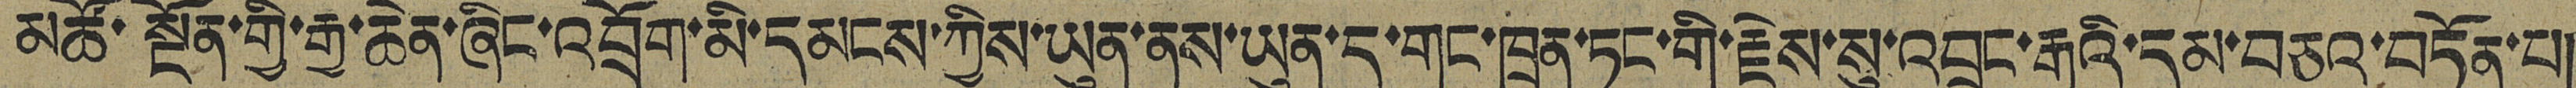མཚོ་སྔོན་གྱི་རྒྱ་ཆེན་ཞིང་འབྲོག་མི་དམངས་ཀྱིས་ཡུན་ནས་ཡུན་དུ་གུང་ཁྲན་ཏང་གི་རྗེས་སུ་འབྲང་རྒྱུའི་དམ་བཅའ་བཏོན་པ།
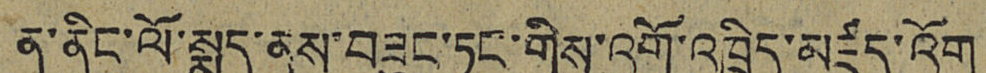ན་ནིང་ལོ་སྨད་ནས་བཟུང་ཏང་གིས་འོག་འཁྲིད་མཛད་འོག
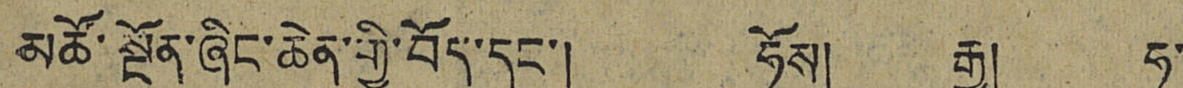མཚོ་སྔོན་ཞིང་ཆེན་གྱི་བོད་དང་། ཧོས། རྒྱ། ཧ་
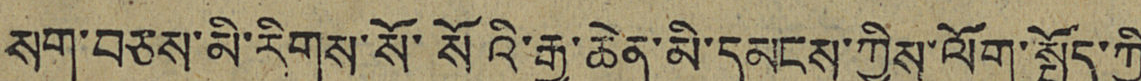སག་བཅས་མི་རིགས་སོ་སོའི་རྒྱ་ཆེན་མི་དམངས་ཀྱིས་ལོག་སྤྱོད་ཀྱི་
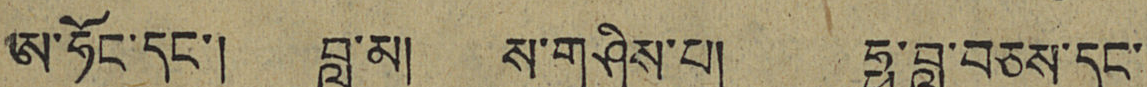ཨ་ཧོང་དང་། བླ་མ། ས་གཤིས་པ། ཧྥ་བླ་བཅས་དང་།
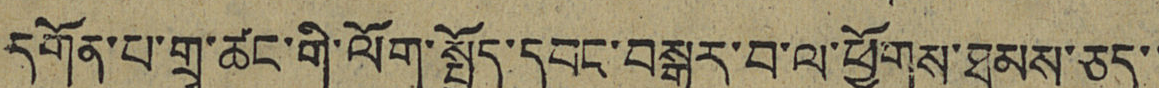དགོན་པ་གྲྭ་ཚང་གི་ལོག་སྤྱོད་དབང་བསྒྱུར་བ་ལ་ཕྱོགས་ཐམས་ཅད་་
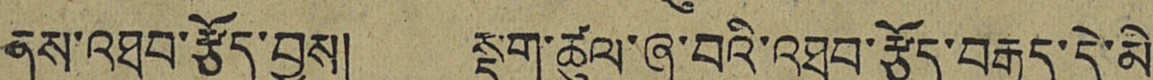ནས་འཐབ་རྫོད་བྱས། སྡུག་ཚུལ་ཞུ་བའི་འཐབ་རྩོད་བརྒྱུད་དེ་མི་
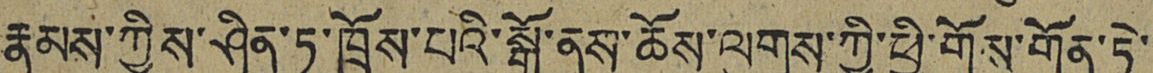རྣམས་ཀྱིས་ཤིན་ཏུ་ཁྲོས་པའི་སྒོ་ནས་ཆོས་ལུགས་ཀྱི་ཕྱི་གོས་གོན་ཏེ་་
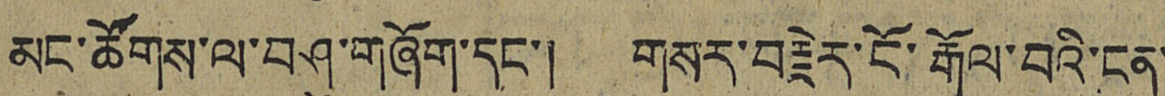མང་ཚོགས་ལ་བཤུ་གཞོག་དང་། གསར་བརྗེར་ངོ་རྒོལ་བིའ་ངན་
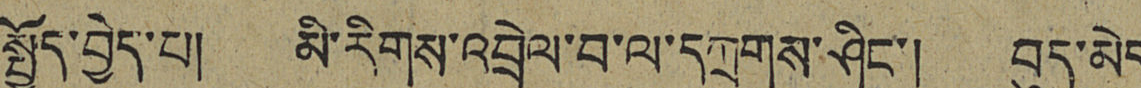སྤྱོད་བྱེད་པ། མི་རིགས་འབྲེལ་བ་ལ་དཀྲུགས་ཤིང་། བུད་མེད་
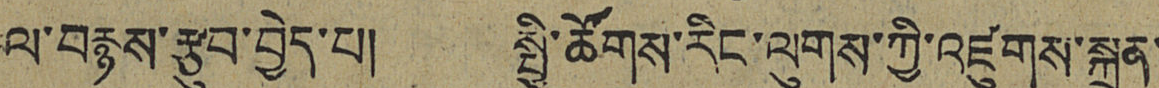ལ་བརྙས་རྩུབ་བྱེད་པ། སྤྱི་ཚོགས་རིང་ལུགས་ཀྱི་འཛུགས་སྐྲུན་
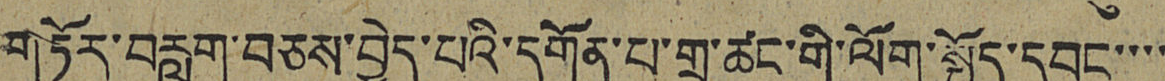གཏོར་བརླག་བཅས་བྱེད་པའི་དགོན་པ་གྲྭ་ཚང་གི་ལོག་སྤྱོད་དབང་་་་
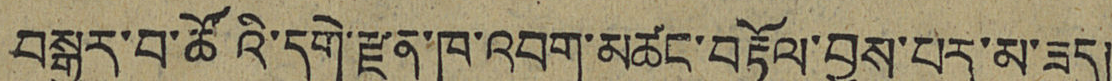བསྒྱུར་བ་ཚོའི་དགེ་རྫུན་ཁ་འབག་མཚང་བརྟོལ་བྱས་པར་མ་ཟད།
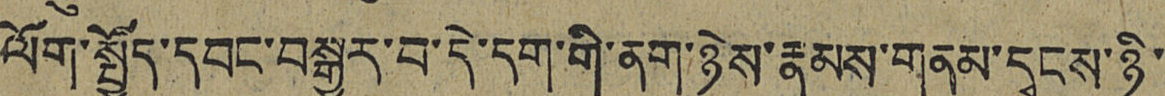ལོག་སྤྱོད་དབང་བསྒྱུར་བ་དེ་དག་གི་ནག་ཉེས་རྣམས་གནམ་དྭངས་ཉི་
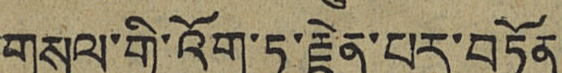གསལ་གྱི་འོག་ཏུ་རྗེན་པར་བཏོན།
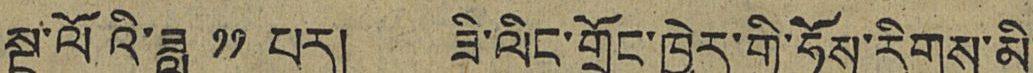སྔ་ལོའི་ཟླ ༡༡ པར། ཟི་ལིང་གྲོང་ཁྱེར་གྱི་ཧོས་རིགས་མི་
